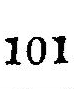101
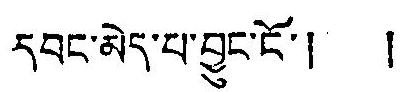དབང་མེད་པ་བྱུང་ངོ་། །
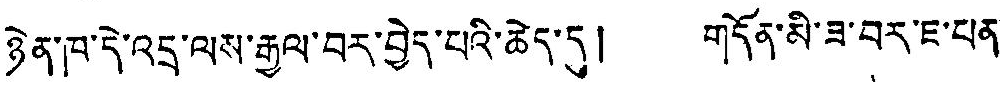ཉེན་ཁ་དེ་འདྲ་ལས་རྒྱལ་བར་བྱེད་པའི་ཆེད་དུ། གདོན་མི་ཟ་བར་ཇ་པན་
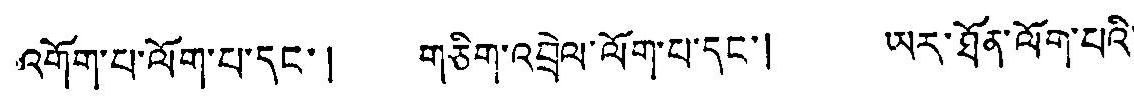འགོག་པ་ལོག་པ་དང་། གཅིག་འབྲེལ་ལོག་པ་དང་། ཡར་ཐོན་ལོག་པའི་
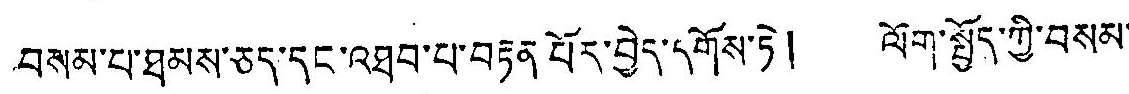བསམ་པ་ཐམས་ཅད་དང་འཐབ་པ་བརྟན པོར་བྱེད་དགོས་ཏེ། ལོག་སྤྱོད་ཀྱི་བསམ་
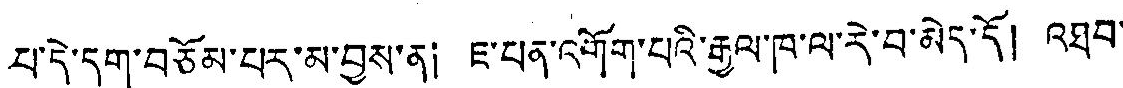པ་དེ་དག་བཅོམ་པར་མ་བྱས་ན། ཇ་པན་འགོག་པའི་རྒྱལ་ཁ་ལ་རེ་བ་མེད་དོ། འཐབ་
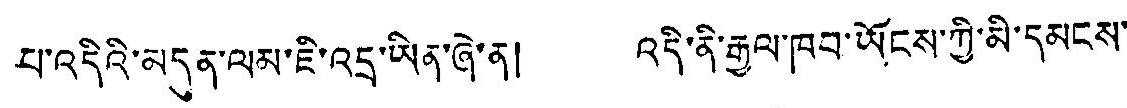པ་འདིའི་མདུན་ལམ་ཇི་འདྲ་ཡིན་ཞེ་ན། འདི་ནི་རྒྱལ་ཁབ་ཡོངས་ཀྱི་མི་དམངས་
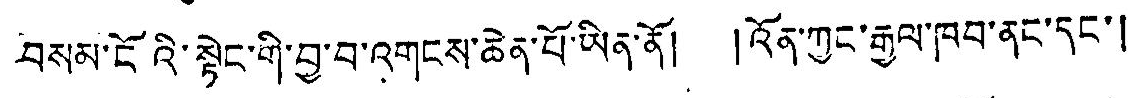བསམ་ངོའི་སྟེང་གི་བྱ་བ་འགངས་ཆེན་པོ་ཡིན་ནོ། །འོན་ཀྱང་རྒྱལ་ཁབ་ནང་དང་།
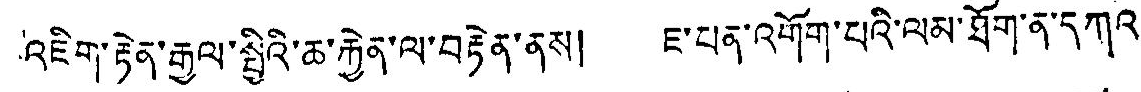འཇིག་རྟེན་རྒྱལ་སྤྱིའི་ཆ་རྐྱེན་ལ་བརྟེན་ནས། ཇ་པན་འགོག་པའི་ལམ་ཐོག་ན་དཀའ
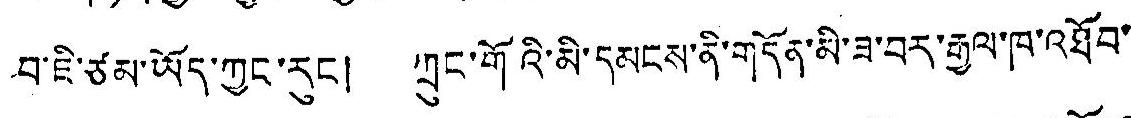བ་ཇི་ཙམ་ཡོད་ཀྱང་རུང། ཀྲུང་གོའི་མི་དམངས་ནི་གདོན་མི་ཟ་བར་རྒྱལ་ཁ་འཐོབ་
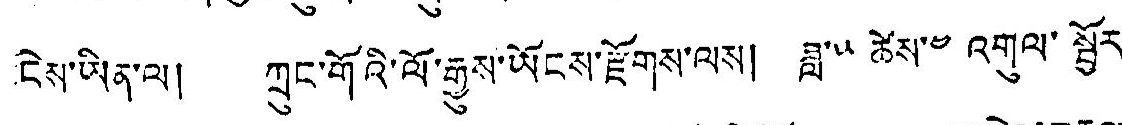ངེས་ཡིན་ལ། ཀྲུང་གོའི་ལོ་རྒྱུས་ཡོངས་རྫོགས་ལས། ཟླ་༥ ཚེས་༤ འགུལ་སྦྱོར་
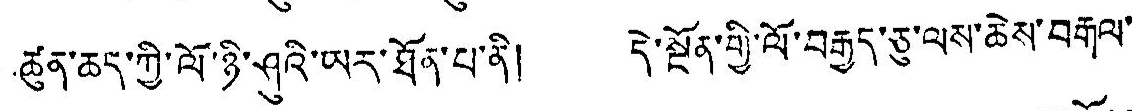ཚུན་ཆད་ཀྱི་ལོ་ཉི་ཤུའི་ཡར་ཐོན་པ་ནི། དེ་སྔོན་གྱི་ལོ་བརྒྱད་ཅུ་ལས་ཆེས་བརྒལ་
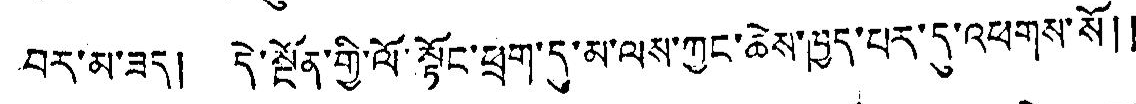བར་མ་ཟད། དེ་སྔོན་གྱི་ལོ་སྟོང་ཕྲག་དུ་མ་ལས་ཀྱང་ཆེས་ཁྱད་པར་དུ་འཕགས་སོ༎
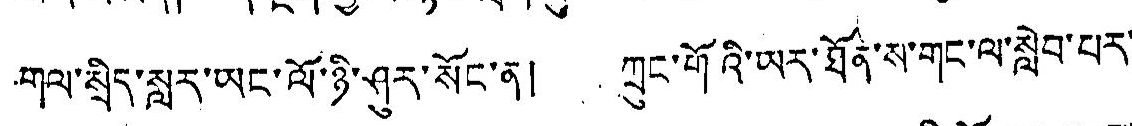གལ་སྲིད་སླར་ཡང་ལོ་ཉི་ཤུར་སོང་ན། ཀྲུང་གོའི་ཡར་ཐོན་ས་གང་ལ་སླེབ་པར་
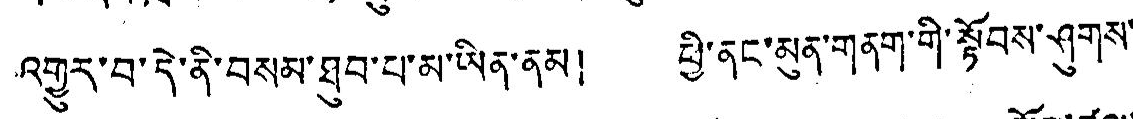འགྱུར་བ་དེ་ནི་བསམ་ཐུབ་པ་མ་ཡིན་ནམ། ཕྱི་ནང་མུན་གནག་གི་སྟོབས་ཤུགས་
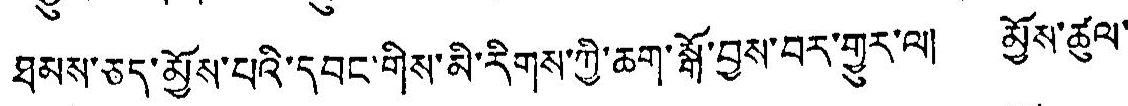ཐམས་ཅད་མྱོས་པའི་དབང་གིས་མི་རིགས་ཀྱི་ཆག་སྒྲོ་བྱས་བར་གྱུར་ལ། མྱོས་ཚུལ་
